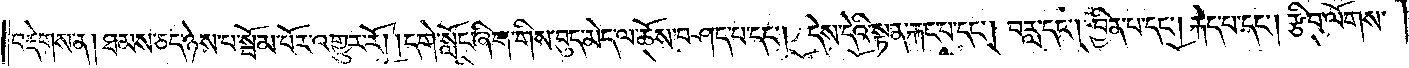བརྡེགས་ན། ཐམས་ཅད་ཉེས་པ་སྦོམ་པོར་འགྱུར་རོ། །དགེ་སློང་ཞིག་གིས་བུད་མེད་ལ་ཆོས་བཤད་པ་དང༌། དེས་དེའི་སྟན་རྐང་པ་དང༌། བརླ་དང༌། བྱིན་པ་དང༌། རྐེད་པ་དང༌། རྩིབ་ལོགས་
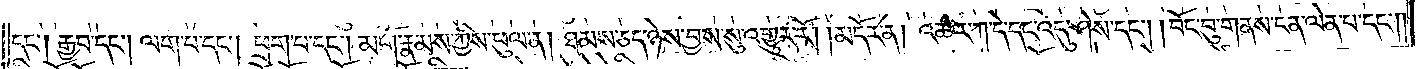དང༌། རྒྱབ་དང༌། ལག་པ་དང༌། ཕྲག་པ་དང༌། མགོ་རྣམས་ཀྱིས་ཕུལ་ན། ཐམས་ཅད་ཉེས་བྱས་སུ་འགྱུར་རོ། །མདོར་ན། འཆར་ཀ་དེ་དང་འདུ་ཤེས་དང༌། །བོང་བུ་གནས་ངན་ལེན་པ་དང༌།
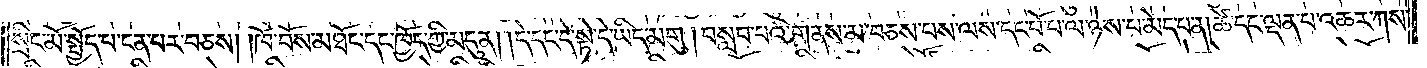སྲིང་མོ་སྤྱོད་པ་ངན་པར་བཅས། །ཁོ་བོས་མཐོང་དང་ཁྱོད་ཀྱི་མདུན། །དེ་དང་དེ་སྟེ་དེ་ཡིད་མགུ་།བསླབ་པའི་གནས་མ་བཅས་པས་ལས་དང་པོ་པ་ལ་ཉེས་པ་མེད་པ་ན། ཚེ་དང་ལྡན་པ་འཆར་ཀས་
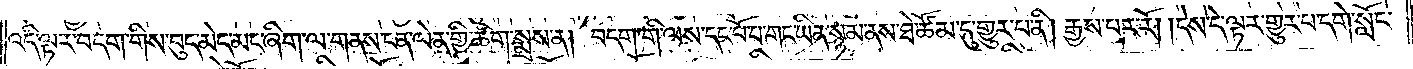འདི་ལྟར་བདག་གིས་བུད་མེད་མང་ཞིག་ལ་གནས་ངན་ལེན་གྱི་ཚིག་སྨྲས་ན། བདག་གིས་ལས་དང་པོ་པ་གང་ཡིན་སྙམ་ནས་ཐེ་ཚོམ་དུ་གྱུར་པ་ནི། རྒྱས་པར་རོ། །དེས་དེ་ལྟར་གྱུར་པ་དགེ་སློང་
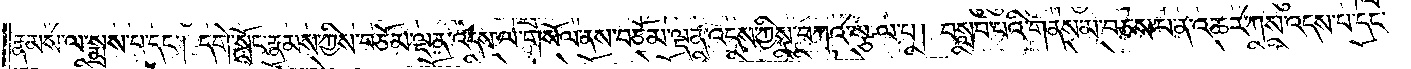རྣམས་ལ་སྨྲས་པ་དང༌། དགེ་སློང་རྣམས་ཀྱིས་བཅོམ་ལྡན་འདས་ལ་གསོལ་ནས་བཅོམ་ལྡན་འདས་ཀྱིས་སྩལ་པ། བསླབ་པའི་ངས་མ་བཅས་པ་ན་འཆར་ཀས་འདས་པ་དང་
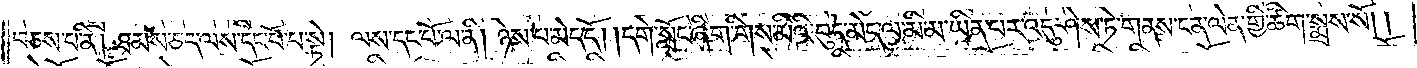བཅས་པ་ནི། ཐམས་ཅད་ལས་དང་པོ་པ་སྟེ། ལས་དང་པོ་ལ་ནི། ཉེས་པ་མེད་དོ། །དགེ་སློང་ཞིག་གིས་མིའི་བུད་མེད་ལ་མི་མ་ཡིན་པར་འདུ་ཤེས་ཏེ་གནས་ངན་ལེན་གྱི་ཚིག་སྨྲས་སོ། །
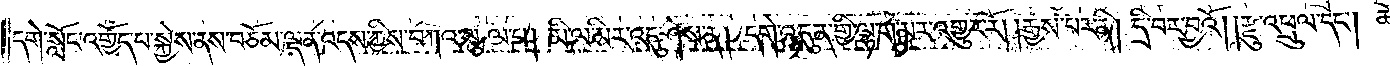དགེ་སློང་འགྱོད་པ་སྐྱེས་ནས་བཅོམ་ལྡན་འདས་ཀྱིས་བཀའ་སྩལ་པ། མི་ལ་མིར་འདུ་ཤེས་ན། དགེ་འདུན་གྱི་ལྷག་མར་འགྱུར་རོ། །རྒྱས་པར་ནི། དྲི་བར་བྱའོ། །རྫུ་འཕྲུལ་དང༌། ཆོ་
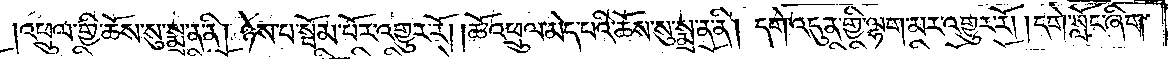འཕྲུལ་གྱི་ཆོས་སུ་སྨྲ་ན་ནི། ཉེས་པ་སྦོམ་པོར་འགྱུར་རོ། །ཆོ་འཕྲུལ་མེད་པའི་ཆོས་སུ་སྨྲ་ན་ནི། དགེ་འདུན་གྱི་ལྷག་མར་འགྱུར་རོ། །དགེ་སློང་ཞིག་
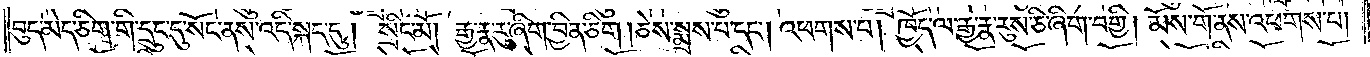བུད་མེད་ཅིག་གི་དྲུང་དུ་སོང་ནས་འདི་སྐད་དུ། སྲིང་མོ། རྒྱ་རྣ་རུ་ཞིག་བྱིན་ཅིག །ཅེས་སྨྲས་པ་དང༌། འཕགས་པ། ཁྱོད་ལ་རྒྱ་རྣ་རུས་ཅི་ཞིག་བགྱི། མོས་གོ་ནས་འཕགས་པ།
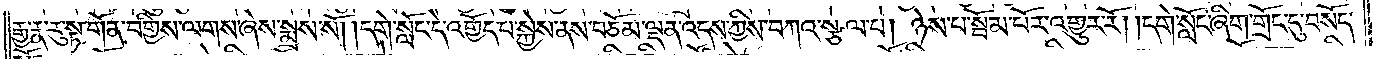རྒྱ་རྣ་རུ་སྟ་གོན་བགྱིས་ལགས་ཞེས་སྨྲས་སོ། །དགེ་སློང་དེ་འགྱོད་པ་སྐྱེས་ནས་བཅོམ་ལྡན་འདས་ཀྱིས་བཀའ་སྩལ་པ། ཉེས་པ་སྦོམ་པོར་འགྱུར་རོ། །དགེ་སློང་ཞིག་གྲོང་དུ་བསོད་
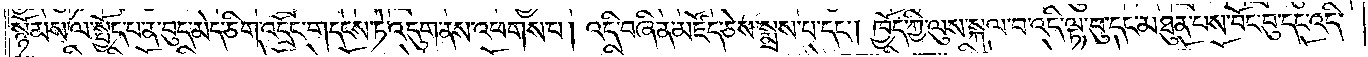སྙོམས་ལ་སྤྱོད་པ་ན་བུད་མེད་ཅིག་འདྲོང་གདངས་ཏེ་འདུག་ནས་འཕགས་པ། འདི་བཞིན་མཛོད་ཅེས་སྨྲས་པ་དང༌། ཁྱོད་ཀྱི་ལུས་སྐལ་བ་འདི་ལྟ་བུ་དང་མཐུན་པས་བོང་བུ་དང་འདི་
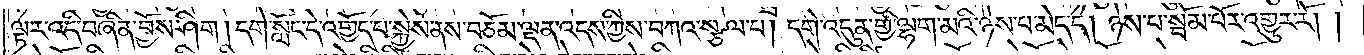ལྟར་འདི་བཞིན་བྱོས་ཤིག །དགེ་སློང་དེ་འགྱོད་པ་སྐྱེས་ནས་བཅོམ་ལྡན་འདས་ཀྱིས་བཀའ་སྩལ་པ། དགེ་འདུན་གྱི་ལྷག་མའི་ཉེས་པ་མེད་དེ། ཉེས་པ་སྦོམ་པོར་འགྱུར་རོ། །
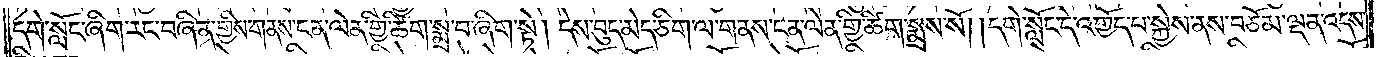དགེ་སློང་ཞིག་རང་བཞིན་གྱིས་གནས་ངན་ལེན་གྱི་ཚིག་སྨྲ་བ་ཞིག་སྟེ། དེས་བུད་མེད་ཅིག་ལ་གནས་ངན་ལེན་གྱི་ཚིག་སྨྲས་སོ། །དགེ་སློང་དེ་འགྱོད་པ་སྐྱེས་ནས་བཅོམ་ལྡན་འདས་
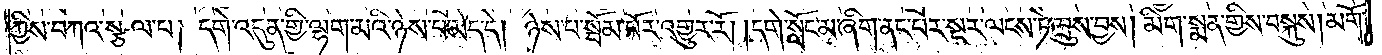ཀྱིས་བཀའ་སྩལ་པ། དགེ་འདུན་གྱི་ལྷག་མའི་ཉེས་པ་མེད་དེ། ཉེས་པ་སྦོམ་པོར་འགྱུར་རོ། །དགེ་སློང་མ་ཞིག་ནང་པར་སྔར་ལངས་ཏེ་ཁྲུས་བྱས། མིག་སྨན་གྱིས་བསྐུས། མགོ་
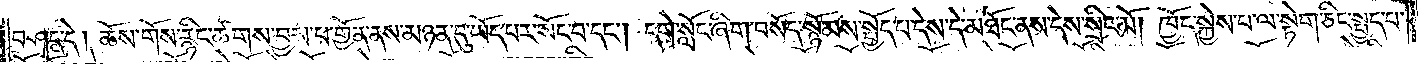བཤད་དེ། ཆོས་གོས་རྙིང་ཚགས་བྱས་པ་གྱོན་ནས་མཉན་དུ་ཡོད་པར་སོང་བ་དང༌། དགེ་སློང་ཞིག་བསོད་སྙོམས་སྤྱོད་པ་དེས་དེ་མཐོང་ནས་དེས་སྲིང་མོ། ཁྱོད་སྐྱེས་པ་སྟེག་ཅིང་སྤྱད་པ་
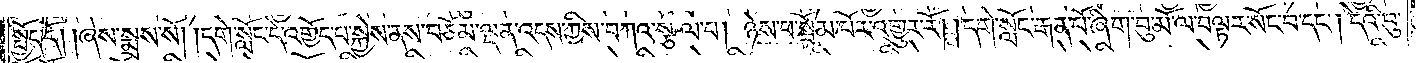སྤྱོད་དོ། །ཞེས་སྨྲས་སོ། །དགེ་སློང་དེ་འགྱོད་པ་སྐྱེས་ནས་བཅོམ་ལྡན་འདས་ཀྱིས་བཀའ་སྩལ་པ། ཉེས་པ་སྦོམ་པོར་འགྱུར་རོ། །དགེ་སློང་རྒན་པོ་ཞིག་བུ་མོ་ལ་བལྟར་སོང་བ་དང༌། དེའི་བུ་
